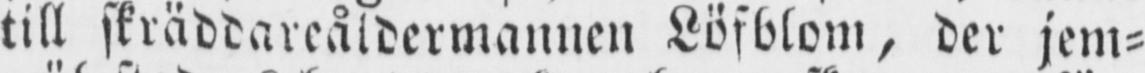till skräddareåldermannen Löfblom, der jem-
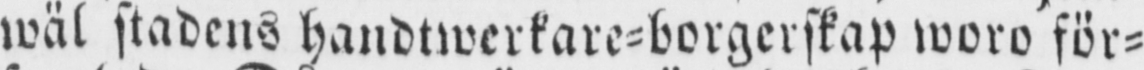wäl stadens handtwerkare-borgerskap woro för-
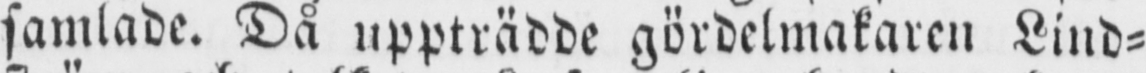samlade. Då uppträdde gördelmakaren Lind-
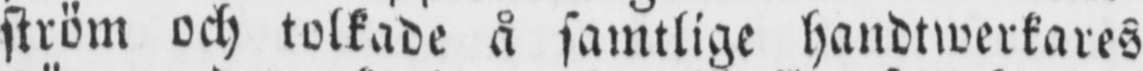ström och tolkade å samtlige handtwerkares
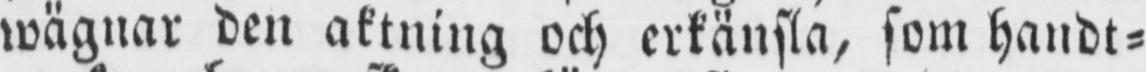wägnar den aktning och erkänsla, som handt-
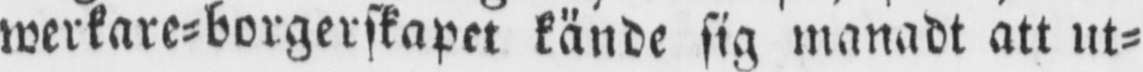werkare-borgerskapet kände sig manadt att ut-
